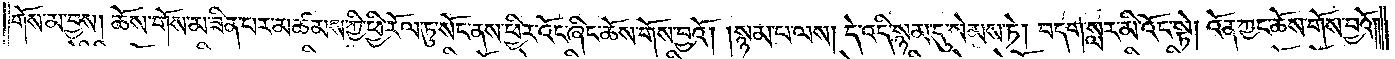གོས་མ་བྱས། ཆོས་གོས་མ་ཟིན་པར་མཚམས་ཀྱི་ཕྱི་རོལ་ཏུ་སོང་ནས་ཕྱིར་འོང་ཞིང་ཆོས་གོས་བྱའོ། །སྙམ་པ་ལས། དེ་འདི་སྙམ་དུ་སེམས་ཏེ། བདག་སླར་མི་འོང་སྟེ། འོན་ཀྱང་ཆོས་གོས་བྱའོ༎
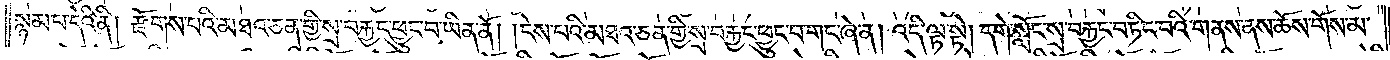སྙམ་པ་དེའི་ནི། རྫོགས་པའི་མཐའ་ཅན་གྱི་སྲ་བརྐྱང་ཕྱུང་བ་ཡིན་ནོ། །ངེས་པའི་མཐའ་ཅན་གྱི་སྲ་བརྐྱང་ཕྱུང་བ་གང་ཞེ་ན། འདི་ལྟ་སྟེ། དགེ་སློང་སྲ་བརྐྱང་བཏིང་བའི་གནས་ནས་ཆོས་གོས་མ་
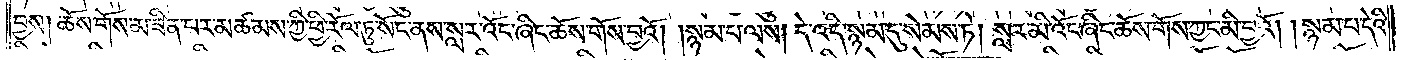བྱས། ཆོས་གོས་མ་ཟིན་པར་མཚམས་ཀྱི་ཕྱི་རོལ་ཏུ་སོང་ནས་སླར་འོང་ཞིང་ཆོས་གོས་བྱའོ། །སྙམ་པ་ལས། དེ་འདི་སྙམ་དུ་སེམས་ཏེ། སླར་མི་འོང་ཞིང་ཆོས་གོས་ཀྱང་མི་བྱའོ། །སྙམ་པ་དེའི་
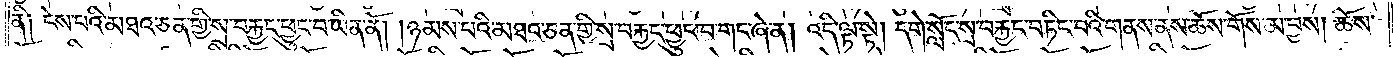ནི༑ ངེས་པའི་མཐའ་ཅན་གྱི་སྲ་བརྐྱང་ཕྱུང་བ་ཡིན་ནོ། །ཉམས་པའི་མཐའ་ཅན་གྱི་སྲ་བརྐྱང་ཕྱུང་བ་གང་ཞེ་ན། འདི་ལྟ་སྟེ། དགེ་སློང་སྲ་བརྐྱང་བཏིང་བའི་གནས་ནས་ཆོས་གོས་མ་བྱས། ཆོས་
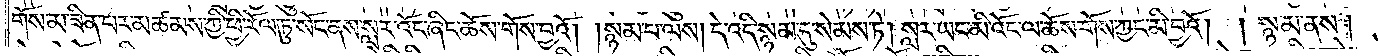གོས་མ་ཟིན་པར་མཚམས་ཀྱི་ཕྱི་རོལ་ཏུ་སོང་ནས་སླར་འོང་ཞིང་ཆོས་གོས་བྱའོ། །སྙམ་པ་ལས། དེ་འདི་སྙམ་དུ་སེམས་ཏེ། སླར་ཡང་མི་འོང་ལ་ཆོས་གོས་ཀྱང་མི་བྱའོ། །སྙམ་ནས།
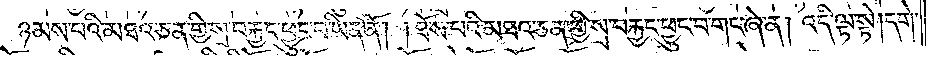དེས་དེ་རྩོམ་ཞིང་བརྩམས་པ་དང་ཉམས་པ་དེའི་ནི།  ཉམས་པའི་མཐའ་ཅན་གྱི་སྲ་བརྐྱང་ཕྱུང་བ་ཡིན་ནོ། །ཐོས་པའི་མཐའ་ཅན་གྱི་སྲ་བརྐྱང་ཕྱུང་བ་གང་ཞེ་ན། འདི་ལྟ་སྟེ། དགེ་
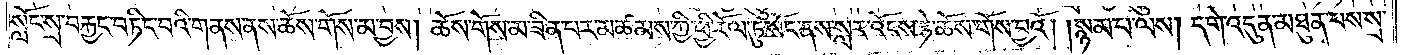སློང་སྲ་བརྐྱང་བཏིང་བའི་གནས་ནས་ཆོས་གོས་མ་བྱས། ཆོས་གོས་མ་ཟིན་པར་མཚམས་ཀྱི་ཕྱི་རོལ་ཏུ་སོང་ནས་སླར་འོངས་ཏེ་ཆོས་གོས་བྱའོ། །སྙམ་པ་ལས། དགེ་འདུན་མཐུན་པས་སྲ་
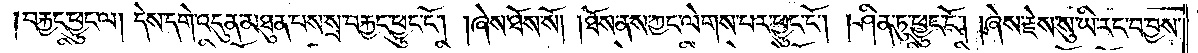བརྐྱང་ཕྱུང་ལ། དེས་དགེ་འདུན་མཐུན་པས་སྲ་བརྐྱང་ཕྱུང་ངོ༌། །ཞེས་ཐོས་སོ། །ཐོས་ནས་ཀྱང་ལེགས་པར་ཕྱུང་ངོ༌། །ཤིན་ཏུ་ཕྱུང་ངོ༌། །ཞེས་རྗེས་སུ་ཡི་རང་བ་བྱས་
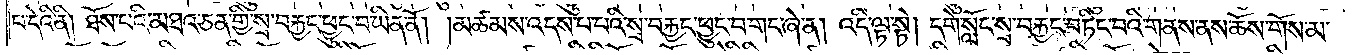པ་དེའི་ནི། ཐོས་པའི་མཐའ་ཅན་གྱི་སྲ་བརྐྱང་ཕྱུང་བ་ཡིན་ནོ། །མཚམས་འདས་པ་པའི་སྲ་བརྐྱང་ཕྱུང་བ་གང་ཞེ་ན། འདི་ལྟ་སྟེ། དགེ་སློང་སྲ་བརྐྱང་བཏིང་བའི་གནས་ནས་ཆོས་གོས་མ་
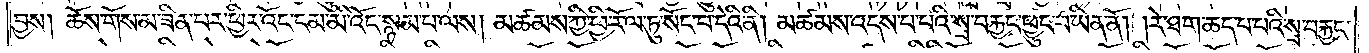བྱས། ཆོས་གོས་མ་ཟིན་པར་ཕྱིར་འོང་ངམ་མི་འོད་སྙམ་པ་ལས། མཚམས་ཀྱི་ཕྱི་རོལ་ཏུ་སོང་བ་དེའི་ནི། མཚམས་འདས་པ་པའི་སྲ་བརྐྱང་ཕྱུང་བ་ཡིན་ནོ། །རེ་ཐག་ཆད་པ་པའི་སྲ་བརྐྱང་
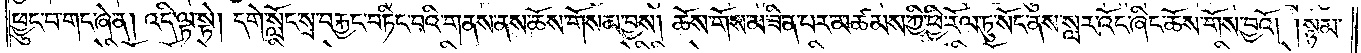ཕྱུང་བ་གང་ཞེ་ན། འདི་ལྟ་སྟེ། དགེ་སློང་སྲ་བརྐྱང་བཏིང་བའི་གནས་ནས་ཆོས་གོས་མ་བྱས། ཆོས་གོས་མ་ཟིན་པར་མཚམས་ཀྱི་ཕྱི་རོལ་ཏུ་ནས་སླར་འོང་ཞིང་ཆོས་གོས་བྱའོ། །སྙམ་
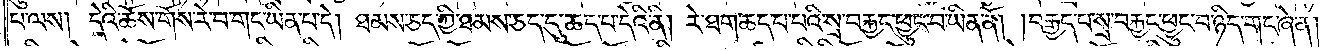པ་ལས། དེའི་ཆོས་གོས་རེ་བ་གང་ཡིན་པ་དེ། ཐམས་ཅད་ཀྱི་ཐམས་ཅད་དུ་ཆད་པ་དེའི་ནི། རེ་ཐག་ཆད་པ་པའི་སྲ་བརྐྱང་ཕྱུང་བ་ཡིན་ནོ། །བརྒྱད་པ་སྲ་བརྐྱང་ཕྱུང་བ་ཉིད་གང་ཞེ་ན།
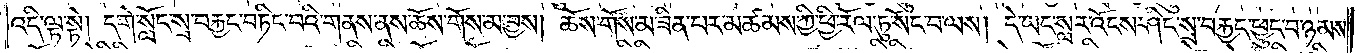འདི་ལྟ་སྟེ། དགེ་སློང་སྲ་བརྐྱང་བཏིང་བའི་གནས་ནས་ཆོས་གོས་མ་བྱས། ཆོས་གོས་མ་ཟིན་པར་མཚམས་ཀྱི་ཕྱི་རོལ་ཏུ་སོང་བ་ལས། དེ་ཡང་སླར་འོངས་ཤིང་སྲ་བརྐྱང་ཕྱུང་བ་ཉམས་
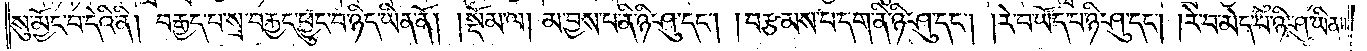སུ་མྱོང་བ་དེའི་ནི། བརྒྱད་པ་སྲ་བརྐྱང་ཕྱུང་བ་ཉིད་ཡིན་ནོ།    །སྡོམ་ལ། མ་བྱས་པ་ནི་ཉི་ཤུ་དང༌། །བརྩམས་པ་དག་ནི་ཉི་ཤུ་དང༌། །རེ་བ་ཡོད་པ་ཉི་ཤུ་དང༌། །རེ་བ་མེད་པ་ཉི་ཤུ་ཡིན། །
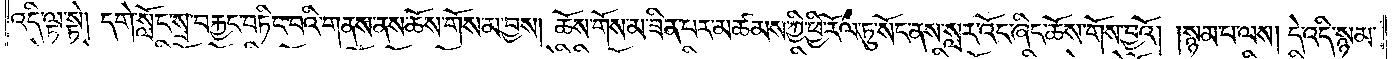འདི་ལྟ་སྟེ། དགེ་སློང་སྲ་བརྐྱང་བཏིང་བའི་གནས་ནས་ཆོས་གོས་མ་བྱས། ཆོས་གོས་མ་ཟིན་པར་མཚམས་ཀྱི་ཕྱི་རོལ་ཏུ་སོང་ནས་སླར་འོང་ཞིང་ཆོས་གོས་བྱའོ། །སྙམ་པ་ལས། དེ་འདི་སྙམ་
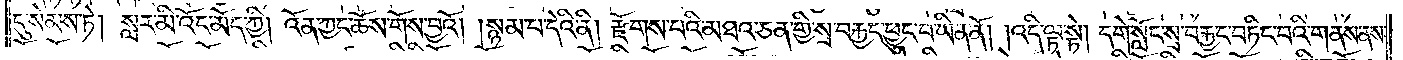དུ་སེམས་ཏེ། སླར་མི་འོང་མོད་ཀྱི། འོན་ཀྱང་ཆོས་གོས་བྱའོ། །སྙམ་པ་དེའི་ནི། རྫོགས་པའི་མཐའ་ཅན་གྱི་སྲ་བརྐྱང་ཕྱུང་བ་ཡིན་ནོ། །འདི་ལྟ་སྟེ། དགེ་སློང་སྲ་བརྐྱང་བཏིང་བའི་གནས་ནས་
